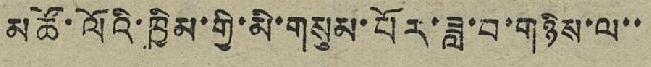མཚོ་ལོའི་ཁྱིམ་གྱི་མི་གསུམ་པོར་ཟླ་བ་གཉིས་ལ་་
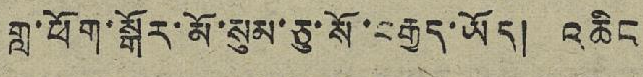གླ་ཕོག་སྒོར་མོ་སུམ་ཅུ་སོ་བརྒྱད་ཡོད། འཆིང
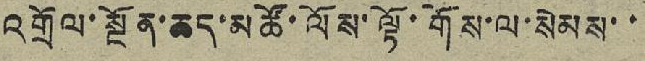འགྲོལ་སྔོན་ཆད་མཚོ་ལོས་ལྟོ་གོས་ལ་སེམས་་
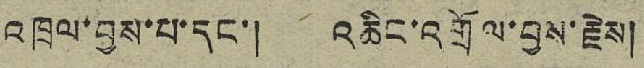འཁྲལ་བྱས་པ་དང་། འཆིང་འགྲོལ་བྱས་རྗེས།
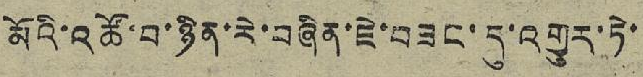མོའི་འཚོ་བ་ཉིན་རེ་བཞིན་ཇེ་བཟང་དུ་འགྱུར་ཏེ་
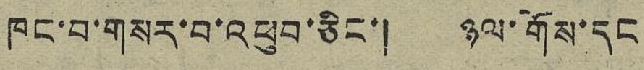ཁང་བ་གསར་བ་འཕུབ་ཅིང་། ཉལ་གོས་དང
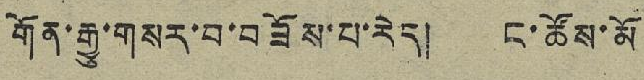གོན་རྒྱུ་གསར་བ་བཟོས་པ་རེད། ང་ཚོས་མོ
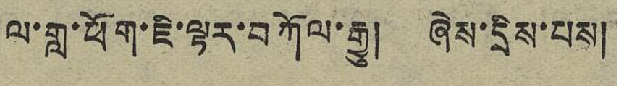ལ་གླ་ཕོག་ཇི་ལྟར་བཀོལ་རྒྱུ། ཞེས་དྲིས་པས།
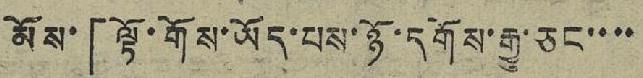མོས་「ལྟོ་གོས་ཡོད་པས་ཉོ་དགོས་རྒྱུ་ཅང་་་་
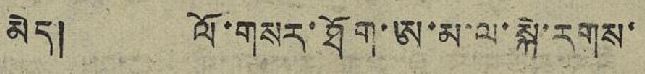མེད། ལོ་གསར་ཐོག་ཨ་མ་ལ་སྐེ་རགས་
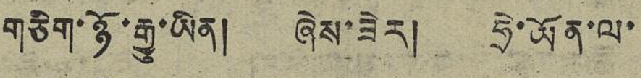གཅིག་ཉོ་རྒྱུ་ཡིན། ཞེས་ཟེར། ཧྲེ་ཡོན་ལ་
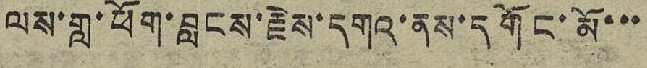ལས་གླ་ཕོག་བླངས་རྗེས་དགའ་ནས་དགོང་མོ་་་
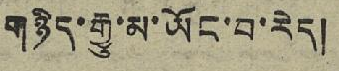གཉིད་རྒྱུ་མ་ཡོང་བ་རེད།
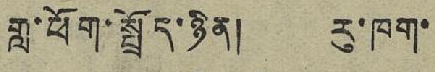གླ་ཕོག་སྤྲོད་ཉིན། རུ་ཁག་
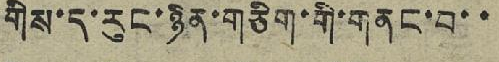གིས་ད་རུང་ཉིན་གཅིག་གི་གནང་བ་་
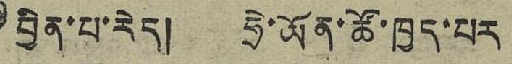བྱིན་པ་རེད། ཧྲེ་ཡོན་ཚོ་ཁྱད་པར
